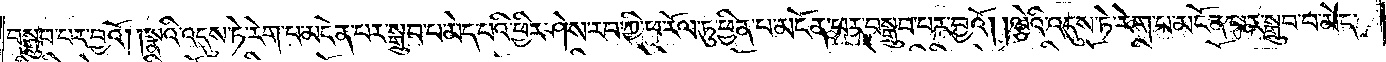བསྒྲུབ་པར་བྱའོ། །སྣའི་འདུས་ཏེ་རེག་པ་མངོན་པར་སྒྲུབ་པ་མེད་པའི་ཕྱིར་ཤེས་རབ་ཀྱི་ཕ་རོལ་ཏུ་ཕྱིན་པ་མངོན་པར་བསྒྲུབ་པར་བྱའོ། །ལྕེའི་འདུས་ཏེ་རེག་པ་མངོན་པར་སྒྲུབ་པ་མེད་
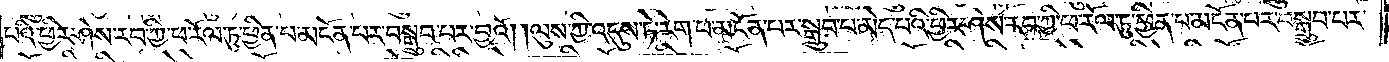པའི་ཕྱིར་ཤེས་རབ་ཀྱི་ཕ་རོལ་ཏུ་ཕྱིན་པ་མངོན་པར་བསྒྲུབ་པར་བྱའོ། །ལུས་ཀྱི་འདུས་ཏེ་རེག་པ་མངོན་པར་སྒྲུབ་པ་མེད་པའི་ཕྱིར་ཤེས་རབ་ཀྱི་ཕ་རོལ་ཏུ་ཕྱིན་པ་མངོན་པར་བསྒྲུབ་པར་
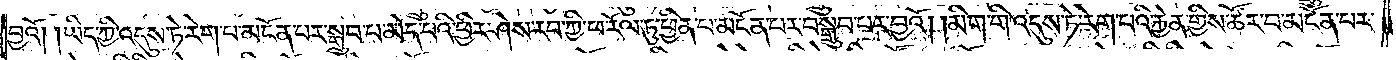བྱའོ། །ཡིད་ཀྱི་འདུས་ཏེ་རེག་པ་མངོན་པར་སྒྲུབ་པ་མེད་པའི་ཕྱིར་ཤེས་རབ་ཀྱི་ཕ་རོལ་ཏུ་ཕྱིན་པ་མངོན་པར་བསྒྲུབ་པར་བྱའོ། །མིག་གི་འདུས་ཏེ་རེག་པའི་རྐྱེན་གྱིས་ཚོར་བ་མངོན་པར་
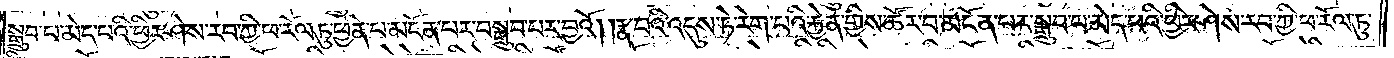སྒྲུབ་པ་མེད་པའི་ཕྱིར་ཤེས་རབ་ཀྱི་ཕ་རོལ་ཏུ་ཕྱིན་པ་མངོན་པར་བསྒྲུབ་པར་བྱའོ། །རྣ་བའི་འདུས་ཏེ་རེག་པའི་རྐྱེན་གྱིས་ཚོར་བ་མངོན་པར་སྒྲུབ་པ་མེད་པའི་ཕྱིར་ཤེས་རབ་ཀྱི་ཕ་རོལ་ཏུ་
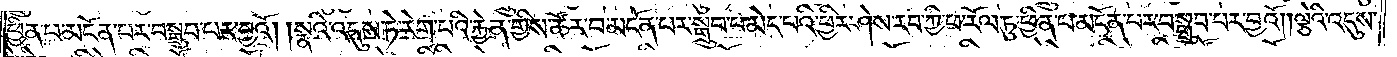ཕྱིན་པ་མངོན་པར་བསྒྲུབ་པར་བྱའོ། །སྣའི་འདུས་ཏེ་རེག་པའི་རྐྱེན་གྱིས་ཚོར་བ་མངོན་པར་སྒྲུབ་པ་མེད་པའི་ཕྱིར་ཤེས་རབ་ཀྱི་ཕ་རོལ་ཏུ་ཕྱིན་པ་མངོན་པར་བསྒྲུབ་པར་བྱའོ། །ལྕེའི་འདུས་
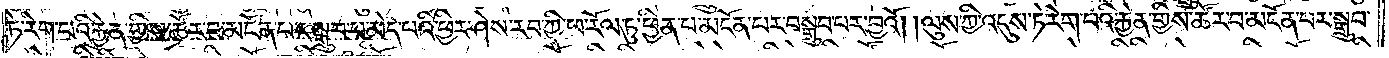ཏེ་རེག་པའི་རྐྱེན་གྱིས་ཚོར་བ་མངོན་པར་སྒྲུབ་པ་མེད་པའི་ཕྱིར་ཤེས་རབ་ཀྱི་ཕ་རོལ་ཏུ་ཕྱིན་པ་མངོན་པར་བསྒྲུབ་པར་བྱའོ། །ལུས་ཀྱི་འདུས་ཏེ་རེག་པའི་རྐྱེན་གྱིས་ཚོར་བ་མངོན་པར་སྒྲུབ་
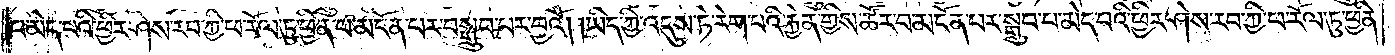པ་མེད་པའི་ཕྱིར་ཤེས་རབ་ཀྱི་ཕ་རོལ་ཏུ་ཕྱིན་པ་མངོན་པར་བསྒྲུབ་པར་བྱའོ། །ཡིད་ཀྱི་འདུས་ཏེ་རེག་པའི་རྐྱེན་གྱིས་ཚོར་བ་མངོན་པར་སྒྲུབ་པ་མེད་པའི་ཕྱིར་ཤེས་རབ་ཀྱི་ཕ་རོལ་ཏུ་ཕྱིན་
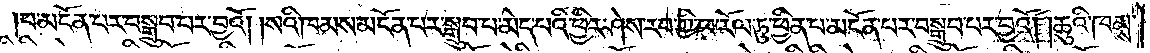པ་མངོན་པར་བསྒྲུབ་པར་བྱའོ། །སའི་ཁམས་མངོན་པར་སྒྲུབ་པ་མེད་པའི་ཕྱིར་ཤེས་རབ་ཀྱི་ཕ་རོལ་ཏུ་ཕྱིན་པ་མངོན་པར་བསྒྲུབ་པར་བྱའོ། །ཆུའི་ཁམས་
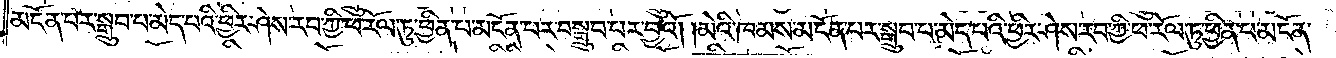མངོན་པར་སྒྲུབ་པ་མེད་པའི་ཕྱིར་ཤེས་རབ་ཀྱི་ཕ་རོལ་ཏུ་ཕྱིན་པ་མངོན་པར་བསྒྲུབ་པར་བྱའོ། །མེའི་ཁམས་མངོན་པར་སྒྲུབ་པ་མེད་པའི་ཕྱིར་ཤེས་རབ་ཀྱི་ཕ་རོལ་ཏུ་ཕྱིན་པ་མངོན་
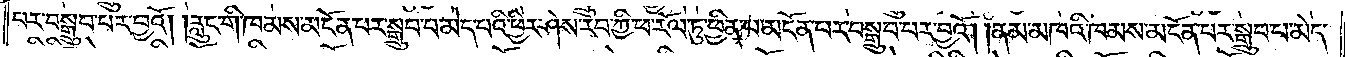པར་བསྒྲུབ་པར་བྱའོ། །རླུང་གི་ཁམས་མངོན་པར་སྒྲུབ་པ་མེད་པའི་ཕྱིར་ཤེས་རབ་ཀྱི་ཕ་རོལ་ཏུ་ཕྱིན་པ་མངོན་པར་བསྒྲུབ་པར་བྱའོ། །ནམ་མཁའི་ཁམས་མངོན་པར་སྒྲུབ་པ་མེད་
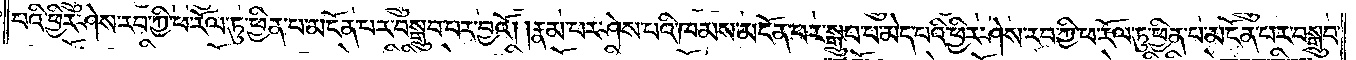པའི་ཕྱིར་ཤེས་རབ་ཀྱི་ཕ་རོལ་ཏུ་ཕྱིན་པ་མངོན་པར་བསྒྲུབ་པར་བྱའོ། །རྣམ་པར་ཤེས་པའི་ཁམས་མངོན་པར་སྒྲུབ་པ་མེད་པའི་ཕྱིར་ཤེས་རབ་ཀྱི་ཕ་རོལ་ཏུ་ཕྱིན་པ་མངོན་པར་བསྒྲུབ་
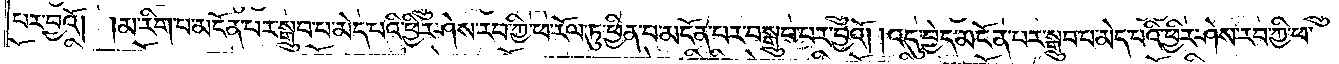པར་བྱའོ། །མ་རིག་པ་མངོན་པར་སྒྲུབ་པ་མེད་པའི་ཕྱིར་ཤེས་རབ་ཀྱི་ཕ་རོལ་ཏུ་ཕྱིན་པ་མངོན་པར་བསྒྲུབ་པར་བྱའོ། །འདུ་བྱེད་མངོན་པར་སྒྲུབ་པ་མེད་པའི་ཕྱིར་ཤེས་རབ་ཀྱི་ཕ་
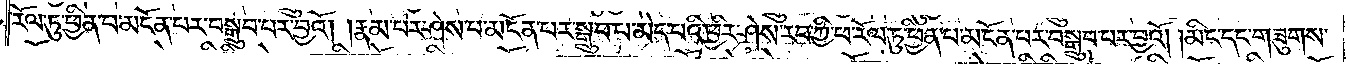རོལ་ཏུ་ཕྱིན་པ་མངོན་པར་བསྒྲུབ་པར་བྱའོ། །རྣམ་པར་ཤེས་པ་མངོན་པར་སྒྲུབ་པ་མེད་པའི་ཕྱིར་ཤེས་རབ་ཀྱི་ཕ་རོལ་ཏུ་ཕྱིན་པ་མངོན་པར་བསྒྲུབ་པར་བྱའོ། །མིང་དང་གཟུགས་
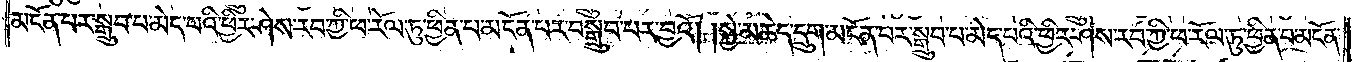མངོན་པར་སྒྲུབ་པ་མེད་པའི་ཕྱིར་ཤེས་རབ་ཀྱི་ཕ་རོལ་ཏུ་ཕྱིན་པ་མངོན་པར་བསྒྲུབ་པར་བྱའོ། །སྐྱེ་མཆེད་དྲུག་མངོན་པར་སྒྲུབ་པ་མེད་པའི་ཕྱིར་ཤེས་རབ་ཀྱི་ཕ་རོལ་ཏུ་ཕྱིན་པ་མངོན་
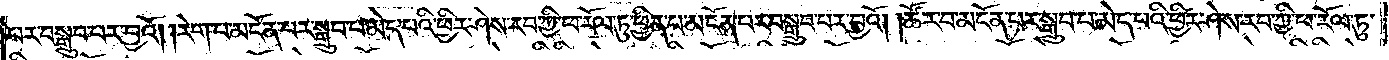པར་བསྒྲུབ་པར་བྱའོ། །རེག་པ་མངོན་པར་སྒྲུབ་པ་མེད་པའི་ཕྱིར་ཤེས་རབ་ཀྱི་ཕ་རོལ་ཏུ་ཕྱིན་པ་མངོན་པར་བསྒྲུབ་པར་བྱའོ། །ཚོར་བ་མངོན་པར་སྒྲུབ་པ་མེད་པའི་ཕྱིར་ཤེས་རབ་ཀྱི་ཕ་རོལ་ཏུ་
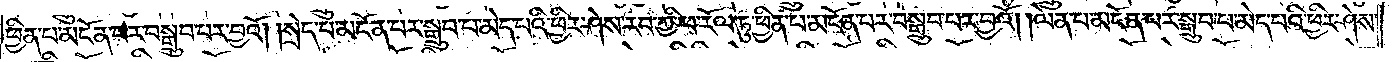ཕྱིན་པ་མངོན་པར་བསྒྲུབ་པར་བྱའོ། །སྲེད་པ་མངོན་པར་སྒྲུབ་པ་མེད་པའི་ཕྱིར་ཤེས་རབ་ཀྱི་ཕ་རོལ་ཏུ་ཕྱིན་པ་མངོན་པར་བསྒྲུབ་པར་བྱའོ། །ལེན་པ་མངོན་པར་སྒྲུབ་པ་མེད་པའི་ཕྱིར་ཤེས་
